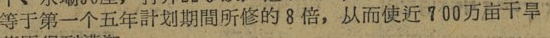等于第一个五年計划期間所修的8倍，从而使近700万亩干旱
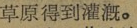草原得到灌漑。
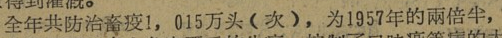全年共防治畜疫1，015万头（次），为1957年的兩倍半，
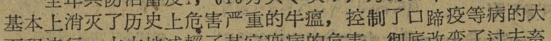基本上消灭了历史上危害严重的牛瘟，控制了口蹄疫等病的大
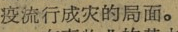疫流行成灾的局面。
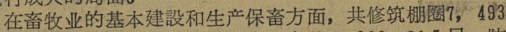在畜牧业的基本建設和生产保畜方面，共修筑棚圈7，493
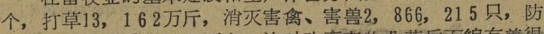个，打草13，162万斤，消灭害禽、害兽2，886，215只，防
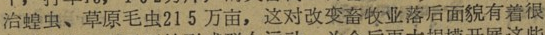治蝗虫、草原毛虫215万亩，这对改变畜牧业落后面貌有着很
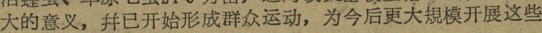大的意义，并已开始行成群众运动，为今后更大規模开展这些
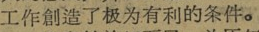工作創造了极为有利的条件。
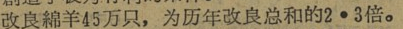改良綿羊45万只，为历年改良总和的2・3倍。
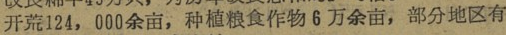开荒124，000余亩，种植粮食作物6万余亩，部分地区有
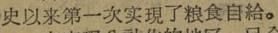史以来第一次实現了粮食自給。
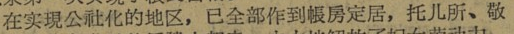在实現公社化的地区，已全部作到帳房定居，托儿所、敬
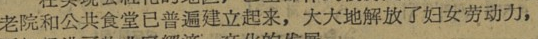老院和公共食堂已普遍建立起来，大大地解放了妇女劳动力，
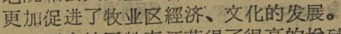更加促进了牧业区經济、文化的发展。
